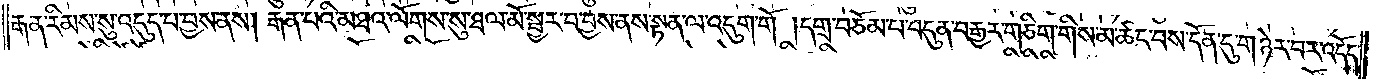རྒན་རིམས་སུ་འདུད་པ་བྱས་ནས། རྒན་པའི་མཐའ་ལོགས་སུ་ཐལ་མོ་སྦྱར་བ་བྱས་ནས་སྟན་ལ་འདུག་གོ །དགྲ་བཅོམ་པ་བདུན་བརྒྱར་གཅིག་གིས་མ་ཚང་བས་དོན་དུ་གཉེར་བར་འདོད་
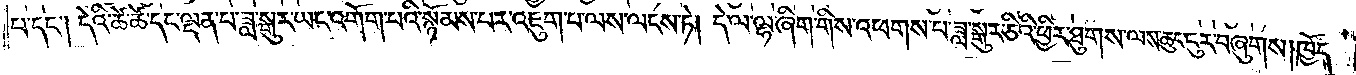པ་དང༌། དེའི་ཚེ་ཚེ་དང་ལྡན་པ་ཟླ་སྒུར་ཡང་འགོག་པའི་སྙོམས་པར་འཇུག་པ་ལས་ལངས་ཏེ། དེ་ལ་ལྷ་ཞིག་གིས་འཕགས་པ་ཟླ་སྒུར་ཅིའི་ཕྱིར་ཐུགས་ལས་ཆུང་ངུར་བཞུགས། ཁྱོད་
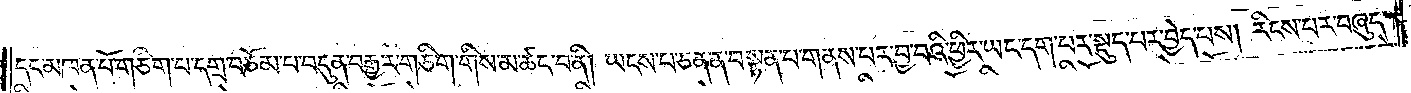དང་མཁན་པོ་གཅིག་པ་དགྲ་བཅོམ་པ་བདུན་བརྒྱར་གཅིག་གིས་མ་ཚང་བ་ནི། ཡངས་པ་ཅན་ན་བསྟན་པ་གནས་པར་བྱ་བའི་ཕྱིར་ཡང་དག་པར་སྡུད་པར་བྱེད་པས། རིངས་པར་བཞུད་
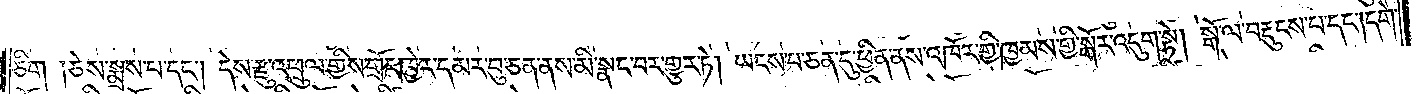ཅིག །ཅེས་སྨྲས་པ་དང༌། དེས་རྫུ་འཕྲུལ་གྱིས་གྲོང་ཁྱེར་དམར་བུ་ཅན་ནས་མི་སྣང་བར་གྱུར་ཏེ། ཡངས་པ་ཅན་དུ་ཕྱིན་ནས་འཁོར་གྱི་ཁྱམས་གྱི་སྒོར་འདུག་སྟེ། སྒོ་ལ་བརྡུངས་པ་དང༌། དགེ་
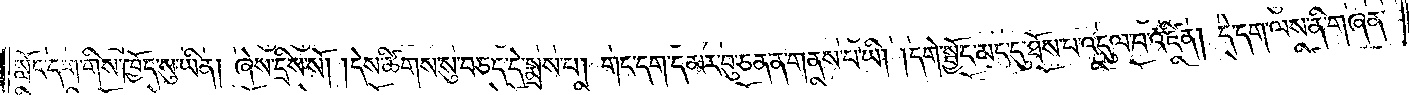སློང་དག་གིས་ཁྱོད་སུ་ཡིན། ཞེས་དྲིས་སོ། །དེས་ཚིགས་སུ་བཅད་དེ་སྨྲས་པ། གང་དག་དམར་བུ་ཅན་ན་གནས་པ་ཡི། །དགེ་སྦྱོང་མང་དུ་ཐོས་པ་འདུལ་བ་འཛིན། དེ་དག་ལས་ནི་གཞན་
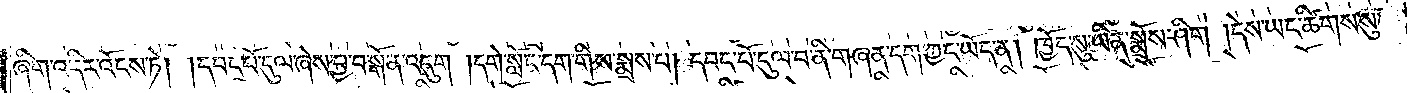ཞིག་འདིར་འོངས་ཏེ། །དབང་པོ་དུལ་ཞེས་བྱ་བ་སྒོ་ན་འདུག །དགེ་སློང་དག་གིས་སྨྲས་པ། དབང་པོ་དུལ་བ་ནི་གཞན་དག་ཀྱང་ཡོད་ན། ཁྱོད་སུ་ཡིན་སྨྲོས་ཤིག །དེས་ཡང་ཚིགས་སུ་
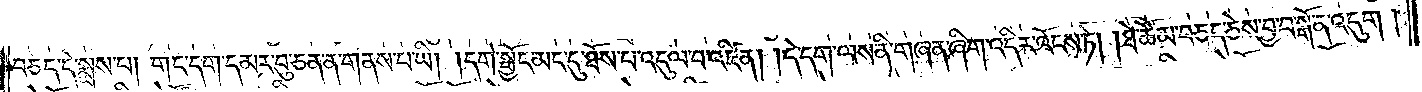བཅད་དེ་སྨྲས་པ། གང་དག་དམར་བུ་ཅན་ན་གནས་པ་ཡི། །དགེ་སྦྱོང་མང་དུ་ཐོས་པ་འདུལ་བ་འཛིན། །དེ་དག་ལས་ནི་གཞན་ཞིག་འདིར་འོངས་ཏེ། །ཐེ་ཚོམ་བཅད་ཅེས་བྱ་བ་སྒོ་ན་འདུག །
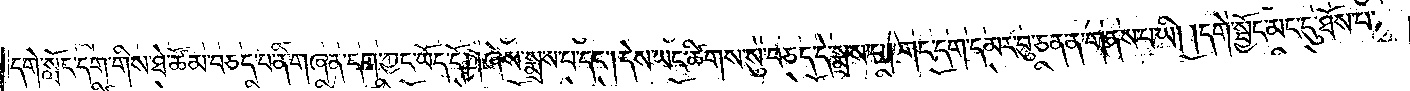དགེ་སློང་དག་གིས་ཐེ་ཚོམ་བཅད་པ་ནི་གཞན་དག་ཀྱང་ཡོད་དོ། །ཞེས་སྨྲས་པ་དང༌། དེས་ཡང་ཚིགས་སུ་བཅད་དེ་སྨྲས་པ། གང་དག་དམར་བུ་ཅན་ན་གནས་པ་ཡི། །དགེ་སྦྱོང་མང་དུ་ཐོས་པ་
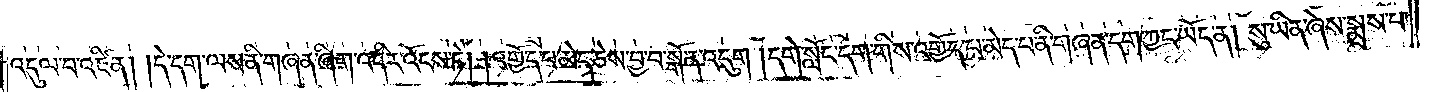འདུལ་བ་འཛིན། །དེ་དག་ལས་ནི་གཞན་ཞིག་འདིར་འོངས་ཏེ། །འགྱོད་པ་མེད་ཅེས་བྱ་བ་སྒོ་ན་འདུག །དགེ་སློང་དག་གིས་འགྱོད་པ་མེད་པ་ནི་གཞན་དག་ཀྱང་ཡོད་ན། སུ་ཡིན་ཞེས་སྨྲས་པ་
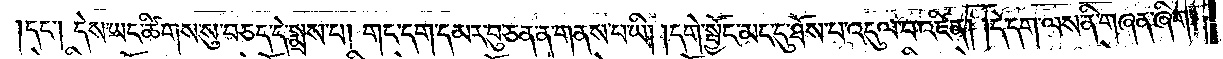།དང༌། དེས་ཡང་ཚིགས་སུ་བཅད་དེ་སྨྲས་པ། གང་དག་དམར་བུ་ཅན་ན་གནས་པ་ཡི། །དགེ་སྦྱོང་མང་དུ་ཐོས་པ་འདུལ་བ་འཛིན། །དེ་དག་ལས་ནི་གཞན་ཞིག་
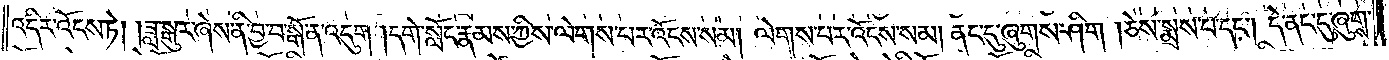འདིར་འོངས་ཏེ། །ཟླ་སྒུར་ཞེས་ནི་བྱ་བ་སྒོ་ན་འདུག །དགེ་སློང་རྣམས་ཀྱིས་ལེགས་པར་འོངས་སམ། ལེགས་པར་འོངས་སམ། ནང་དུ་ཞུགས་ཤིག །ཅེས་སྨྲས་པ་དང༌། དེ་ནང་དུ་ཞུགས་
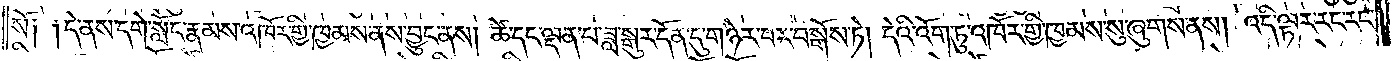སོ། །དེ་ནས་དགེ་སློང་རྣམས་འཁོར་གྱི་ཁྱམས་ནས་བྱུང་ནས། ཚེ་དང་ལྡན་པ་ཟླ་སྒུར་དོན་དུ་གཉེར་བར་བསྒོས་ཏེ། དེའི་འོག་ཏུ་འཁོར་གྱི་ཁྱམས་སུ་ཞུགས་ནས། འདི་ལྟར་རང་རང་
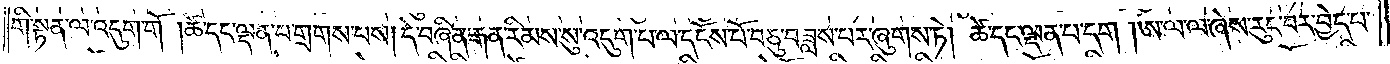གི་སྟན་ལ་འདུག་གོ །ཚེ་དང་ལྡན་པ་གྲགས་པས། དེ་བཞིན་རྒན་རིམས་སུ་འདུག་པ་ལ་དངོས་པོ་བཅུ་བཟླས་པར་ཞུགས་ཏེ། ཚེ་དང་ལྡན་པ་དག །ཨ་ལ་ལ་ཞེས་རུང་བར་བྱེད་པ་
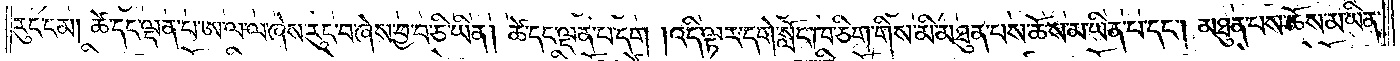རུང་ངམ། ཚེ་དང་ལྡན་པ་ཨ་ལ་ལ་ཞེས་རུང་བ་ཞེས་བྱ་བ་ཅི་ཡིན། ཚེ་དང་ལྡན་པ་དག །འདི་ལྟར་དགེ་སློང་ཁ་ཅིག་གིས་མི་མཐུན་པས་ཆོས་མ་ཡིན་པ་དང༌། མཐུན་པས་ཆོས་མ་ཡིན་
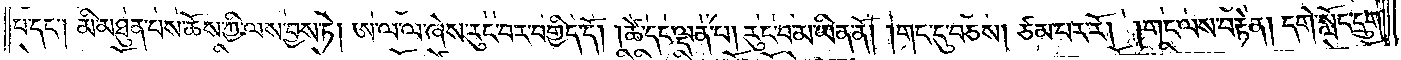པ་དང༌། མི་མཐུན་པས་ཆོས་ཀྱི་ལས་བྱས་ཏེ། ཨ་ལ་ལ་ཞེས་རུང་བར་བགྱིད་དོ། །ཚེ་དང་ལྡན་པ། རུང་བ་མ་ཡིན་ནོ། །གང་དུ་བཅས། ཙམ་པར་རོ། །གང་ལས་བརྟེན། དགེ་སློང་དྲུག་
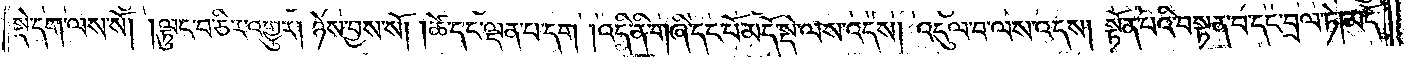སྡེ་དག་ལས་སོ། །ལྟུང་བ་ཅིར་འགྱུར། ཉེས་བྱས་སོ། །ཚེ་དང་ལྡན་པ་དག །འདི་ནི་གཞི་དང་པོ་མདོ་སྡེ་ལས་འདས། འདུལ་བ་ལས་འདས། སྟོན་པའི་བསྟན་པ་དང་བྲལ་ཏེ། མདོ་
